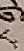༨
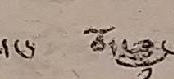དང་ བོད་ཟླ་
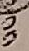༡༡
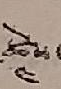ཚེས་
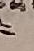༤
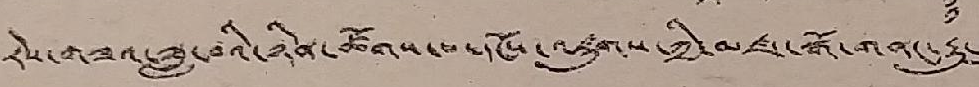རེས་གཟའ་ཟླ་བའི་ཉིན་ཚོགས་པ་དངོས་འཛུགས་ཀྱི་མཛད་སྒོ་གནང་རྒྱུ་ཐུཊ་
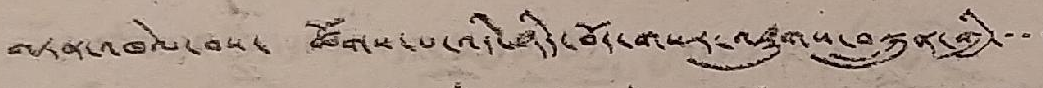གཏན་འཁེལ་བས་ ཚོགས་པ་འདི་ཉིད་བོད་གསར་འཛུགས་བསྐྲུན་གྱི་་་་
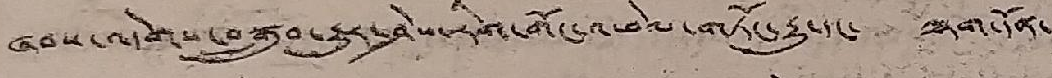ཞབས་འདེགས་བསྒྲུབས་རྒྱུར་ཤེས་རིག་གོང་འཕེལ་གཏོང་རྒྱུ་དང་ ལྷག་དོན་
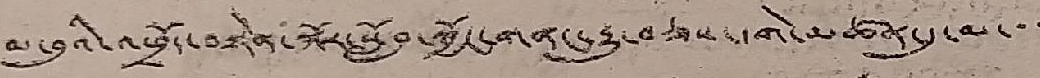མ་བུའི་འཕྲོད་བརྟེན་སྐོར་སློབ་སྦྱོང་གནང་རྒྱུ་བཅས་དགེ་མཚན་དུ་མ་་་
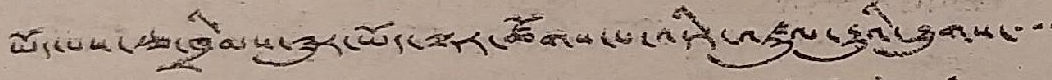ཡོད་པས་རྩ་ཁྲིམས་ཟུར་ཡོད་ལྟར་ཚོགས་པ་འདིར་འཛུལ་རྒྱུའི་ཐུགས་་་་
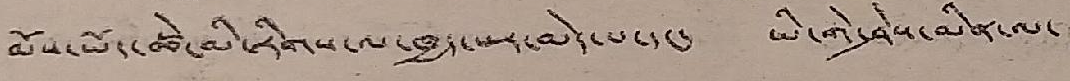མོས་ཡོད་ཚེ་མི་རིགས་ལ་ཁྱད་པར་མེད་པ་དང་ ཡི་གེ་ཤེས་མིན་ལ་
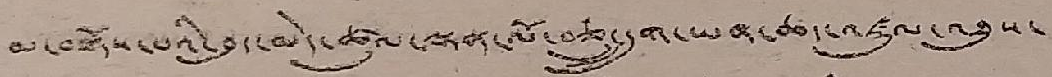མ་བལྟོས་པའི་བུད་མེད་ཚུལ་ལྡན་པོ་བཅུ་དྲུག་ཡན་ཆད་འཛུལ་འཐུས་
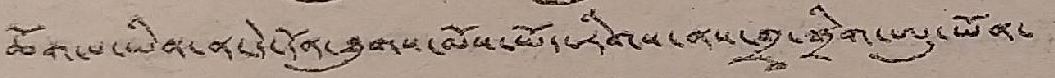ཆོག་པ་ཡིན་ན་དེ་དོན་ཐུགས་མོས་ཡོད་རིགས་ནས་གྲྭ་སྒྲིག་ཨུ་ཡོན་
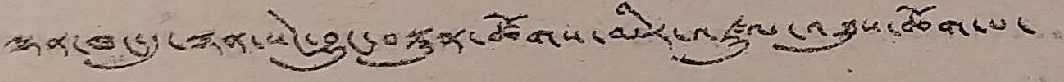ལྷན་ཁང་དུ་སྙན་སེང་བྱུང་བསྟུན་ཚོགས་མིར་འཛུལ་འཐུས་ཆོག་པ་
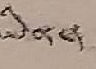ཡིན་།
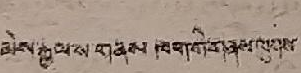མེས་རྒྱལ་ས་གནས་ཁག་གི་གནས་ལུགས་
